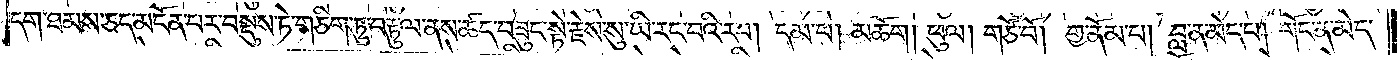དག་ཐམས་ཅད་མངོན་པར་བསྡུས་ཏེ་གཅིག་ཏུ་བརྟུལ་ནས་ཚད་བཟུང་སྟེ་རྗེས་སུ་ཡི་རང་བའི་རབ། དམ་པ། མཆོག །ཕུལ། གཙོ་བོ། གྱ་ནོམ་པ། བླ་ན་མེད་པ། གོང་ན་མེད་
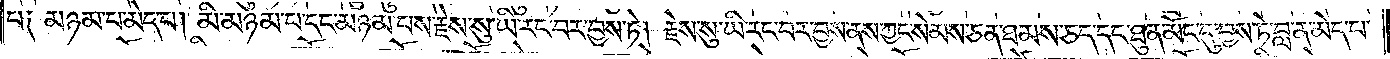པ༑ མཉམ་པ་མེད་པ། མི་མཉམ་པ་དང་མཉམ་པས་རྗེས་སུ་ཡི་རང་བར་བྱས་ཏེ། རྗེས་སུ་ཡི་རང་བར་བྱས་ནས་ཀྱང་སེམས་ཅན་ཐམས་ཅད་དང་ཐུན་མོང་དུ་བྱས་ཏེ་བླ་ན་མེད་པ་
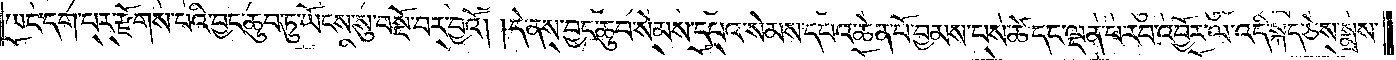ཡང་དག་པར་རྫོགས་པའི་བྱང་ཆུབ་ཏུ་ཡོངས་སུ་བསྔོ་བར་བྱའོ། །དེ་ནས་བྱང་ཆུབ་སེམས་དཔའི་སེམས་དཔའ་ཆེན་པོ་བྱམས་པས་ཚེ་དང་ལྡན་པ་རབ་འབྱོར་ལ་འདི་སྐད་ཅེས་སྨྲས་
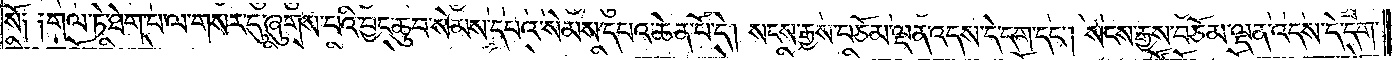སོ༑ ༑གལ་ཏེ་ཐེག་པ་ལ་གསར་དུ་ཞུགས་པའི་བྱང་ཆུབ་སེམས་དཔའ་སེམས་དཔའ་ཆེན་པོ་དེ། སངས་རྒྱས་བཅོམ་ལྡན་འདས་དེ་དག་དང༌། སངས་རྒྱས་བཅོམ་ལྡན་འདས་དེ་དག་
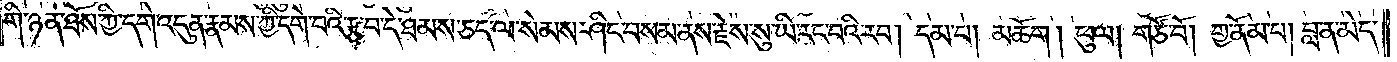གི་ཉན་ཐོས་ཀྱི་དགེ་འདུན་རྣམས་ཀྱི་དགེ་བའི་རྩ་བ་དེ་ཐམས་ཅད་ལ་སེམས་ཤིང་བསམས་ནས་རྗེས་སུ་ཡི་རང་བའི་རབ། དམ་པ། མཆོག །ཕུལ། གཙོ་བོ། གྱ་ནོམ་པ། བླ་ན་མེད་
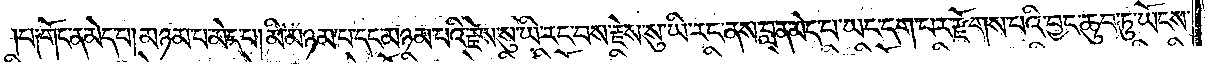པ༑ གོང་ན་མེད་པ། མཉམ་པ་མེད་པ། མི་མཉམ་པ་དང་མཉམ་པའི་རྗེས་སུ་ཡི་རང་བས་རྗེས་སུ་ཡི་རང་ནས་བླ་ན་མེད་པ་ཡང་དག་པར་རྫོགས་པའི་བྱང་ཆུབ་ཏུ་ཡོངས་
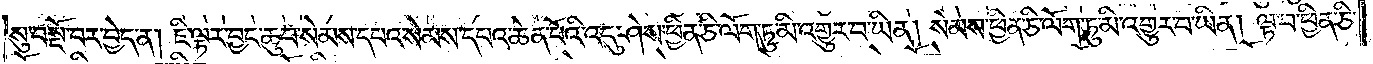སུ་བསྔོ་བར་བྱེད་ན། ཇི་ལྟར་བྱང་ཆུབ་སེམས་དཔའ་སེམས་དཔའ་ཆེན་པོའི་འདུ་ཤེས་ཕྱིན་ཅི་ལོག་ཏུ་མི་འགྱུར་བ་ཡིན། སེམས་ཕྱིན་ཅི་ལོག་ཏུ་མི་འགྱུར་བ་ཡིན། ལྟ་བ་ཕྱིན་ཅི་
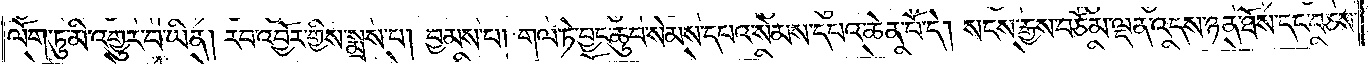ལོག་ཏུ་མི་འགྱུར་བ་ཡིན། རབ་འབྱོར་གྱིས་སྨྲས་པ། བྱམས་པ། གལ་ཏེ་བྱང་ཆུབ་སེམས་དཔའ་སེམས་དཔའ་ཆེན་པོ་དེ། སངས་རྒྱས་བཅོམ་ལྡན་འདས་ཉན་ཐོས་དང་བཅས་
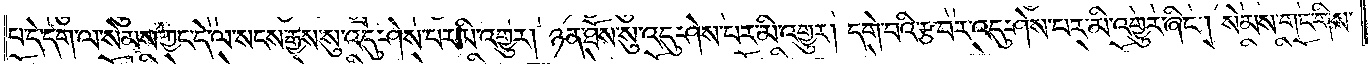པ་དེ་དག་ལ་སེམས་ཀྱང་དེ་ལ་སངས་རྒྱས་སུ་འདུ་ཤེས་པར་མི་འགྱུར། ཉན་ཐོས་སུ་འདུ་ཤེས་པར་མི་འགྱུར། དགེ་བའི་རྩ་བར་འདུ་ཤེས་པར་མི་འགྱུར་ཞིང༌། སེམས་གང་གིས་
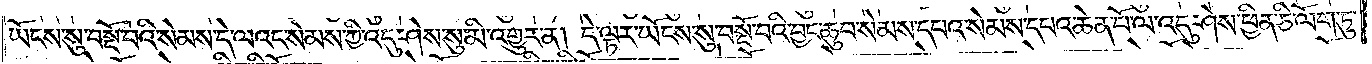ཡོངས་སུ་བསྔོ་བའི་སེམས་དེ་ལའང་སེམས་ཀྱི་འདུ་ཤེས་སུ་མི་འགྱུར་ན། དེ་ལྟར་ཡོངས་སུ་བསྔོ་བའི་བྱང་ཆུབ་སེམས་དཔའ་སེམས་དཔའ་ཆེན་པོ་ལ་འདུ་ཤེས་ཕྱིན་ཅི་ལོག་ཏུ་
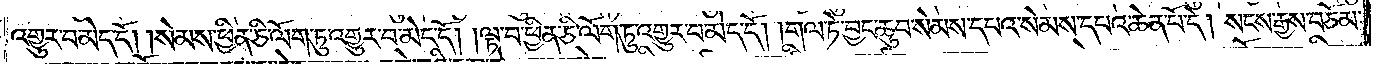འགྱུར་བ་མེད་དོ། །སེམས་ཕྱིན་ཅི་ལོག་ཏུ་འགྱུར་བ་མེད་དོ། །ལྟ་བ་ཕྱིན་ཅི་ལོག་ཏུ་འགྱུར་བ་མེད་དོ། །གལ་ཏེ་བྱང་ཆུབ་སེམས་དཔའ་སེམས་དཔའ་ཆེན་པོ་དེ། སངས་རྒྱས་བཅོམ་
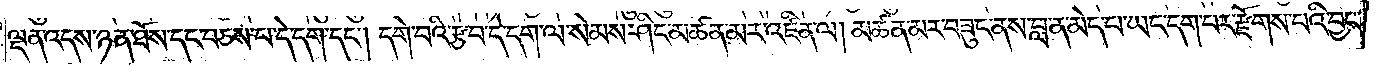ལྡན་འདས་ཉན་ཐོས་དང་བཅས་པ་དེ་དག་དང༌། དགེ་བའི་རྩ་བ་དེ་དག་ལ་སེམས་ཤིང་མཚན་མར་འཛིན་ལ། མཚན་མར་བཟུང་ནས་བླ་ན་མེད་པ་ཡང་དག་པར་རྫོགས་པའི་བྱང་
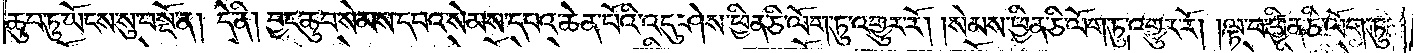ཆུབ་ཏུ་ཡོངས་སུ་བསྔོ་ན། དེ་ནི། བྱང་ཆུབ་སེམས་དཔའ་སེམས་དཔའ་ཆེན་པོའི་འདུ་ཤེས་ཕྱིན་ཅི་ལོག་ཏུ་འགྱུར་རོ། །སེམས་ཕྱིན་ཅི་ལོག་ཏུ་འགྱུར་རོ། །ལྟ་བ་ཕྱིན་ཅི་ལོག་ཏུ་
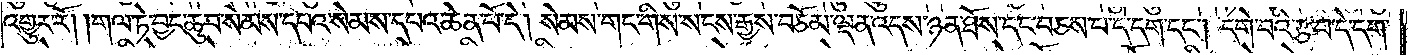འགྱུར་རོ། །གལ་ཏེ་བྱང་ཆུབ་སེམས་དཔའ་སེམས་དཔའ་ཆེན་པོ་དེ། སེམས་གང་གིས་སངས་རྒྱས་བཅོམ་ལྡན་འདས་ཉན་ཐོས་དང་བཅས་པ་དེ་དག་དང༌། དགེ་བའི་རྩ་བ་དེ་དག་
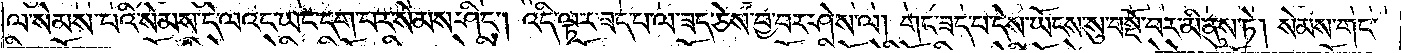ལ་སེམས་དཔའི་སེམས་དེ་ལའང་ཡང་དག་པར་སེམས་ཤིང༌། འདི་ལྟར་ཟད་པ་ལ་ཟད་ཅེས་བྱ་བར་ཤེས་ལ། གང་ཟད་པ་དེས་ཡོངས་སུ་བསྔོ་བར་མི་ནུས་ཏེ། སེམས་གང་
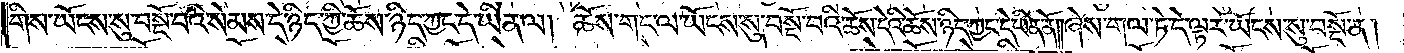གིས་ཡོངས་སུ་བསྔོ་བའི་སེམས་དེ་ཉིད་ཀྱི་ཆོས་ཉིད་ཀྱང་དེ་ཡིན་ལ། ཆོས་གང་ལ་ཡོངས་སུ་བསྔོ་བའི་ཆོས་དེའི་ཆོས་ཉིད་ཀྱང་དེ་ཡིན་ནོ། །ཞེས་གལ་ཏེ་དེ་ལྟར་ཡོངས་སུ་བསྔོ་ན།
